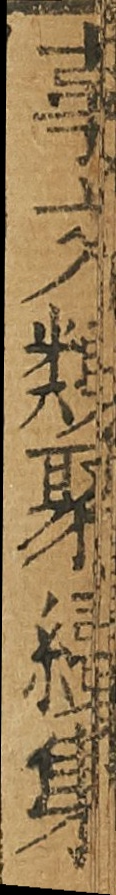事文類聚續集
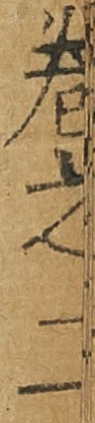卷之二
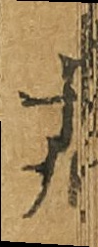十六
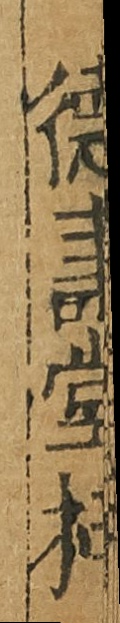德壽堂梓
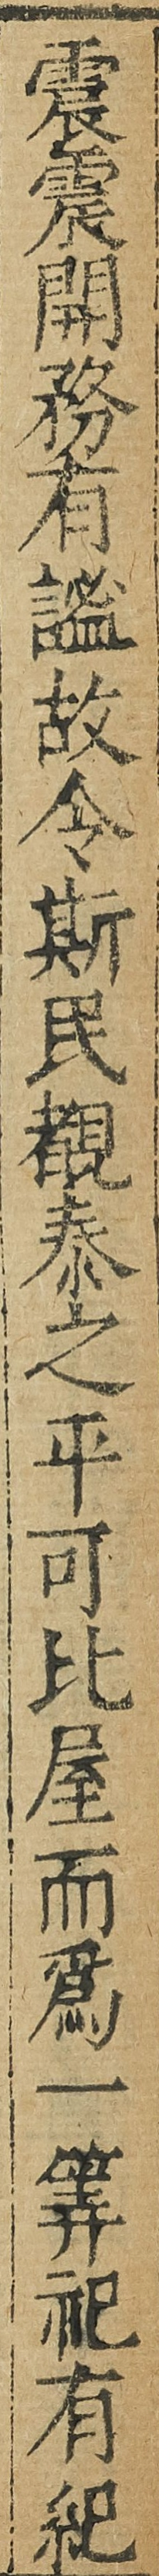震震開務有謐故令斯民覩泰之平可比屋而為一算祀有紀
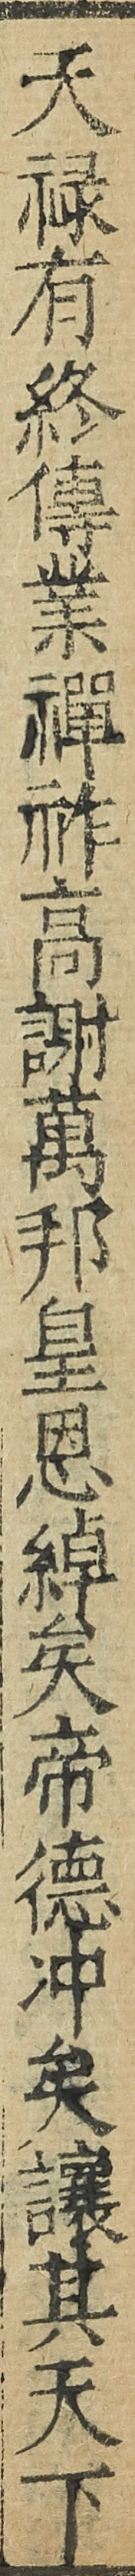天禄有終傳業禪祚高謝萬邦皇恩綽矣帝徳沖矣讓其天下
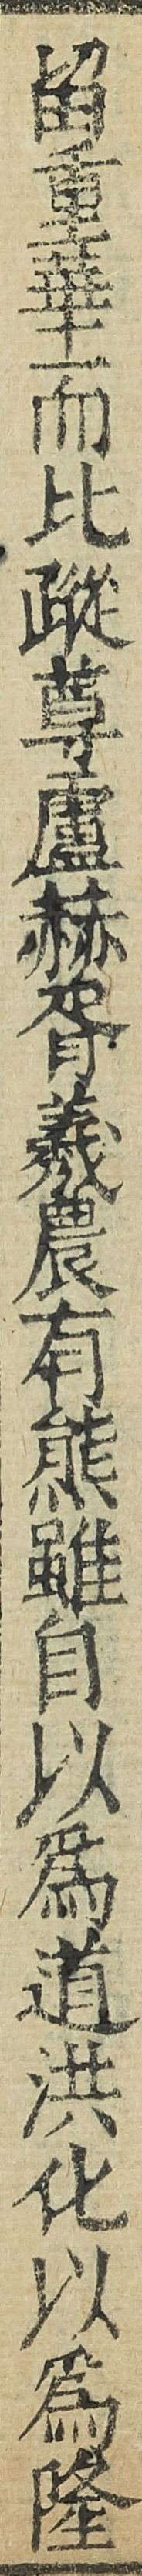留重華而比蹤尊盧赫胥羲農有熊雖自以為道洪化以為隆
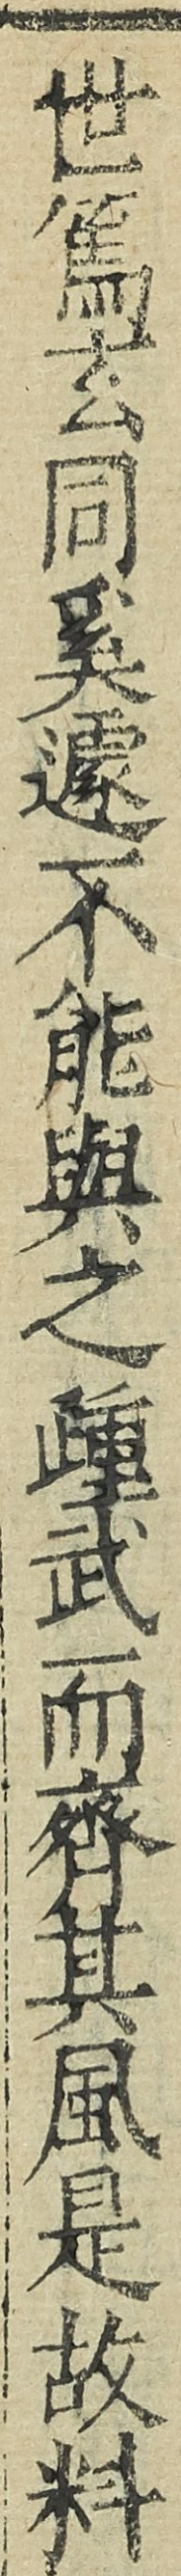世篤玄同奚遽不能與之踵武而齊其風是故料
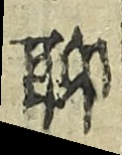聊
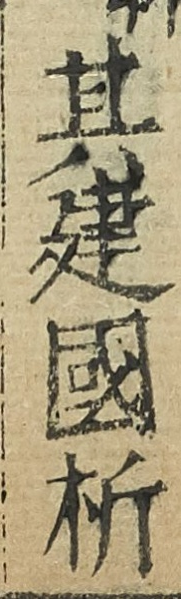其建國析
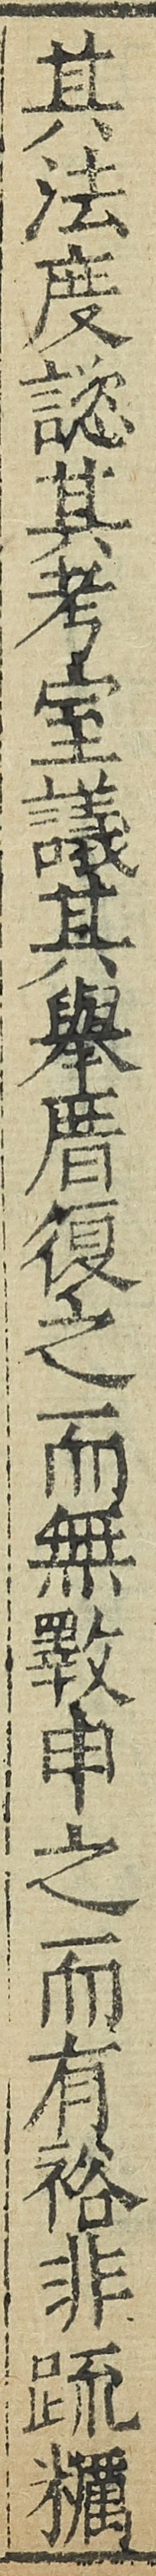其法度諮其考室議其舉厝復之而無斁申之而有裕非疏糲
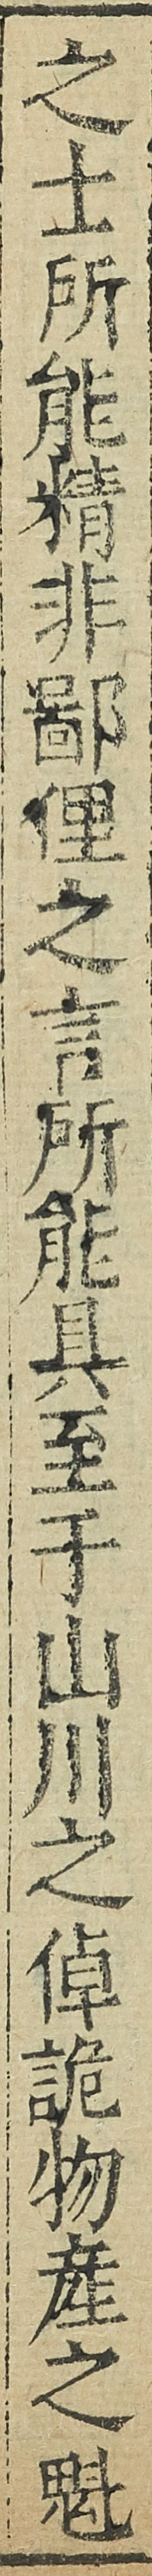之士所能精非鄙俚之言所能具至于山川之倬詭物産之魁
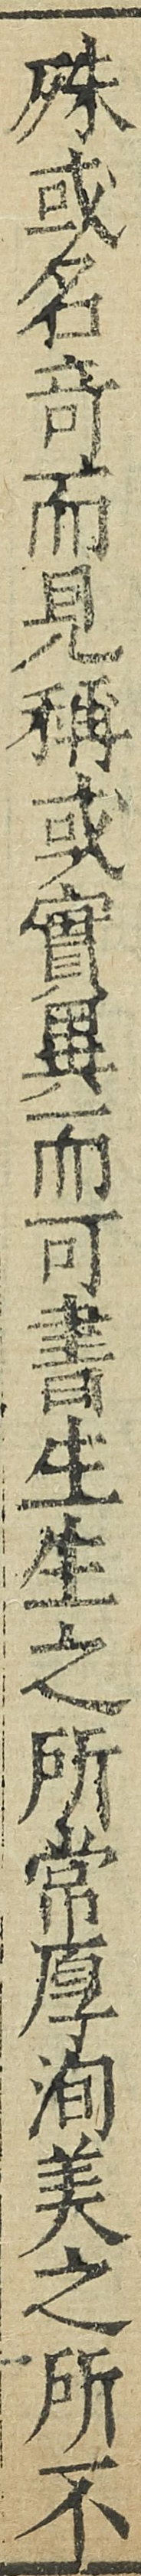殊或名竒而見稱或實異而可書生生之所常厚洵美之所不
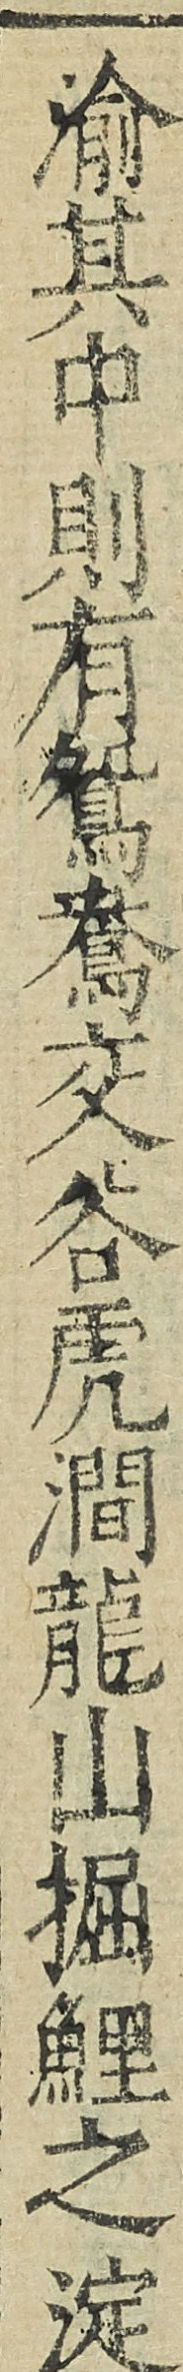渝其中則有鴛鴦交谷虎澗龍山掘鯉之淀
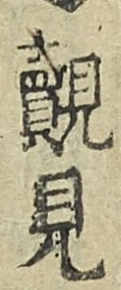覿見
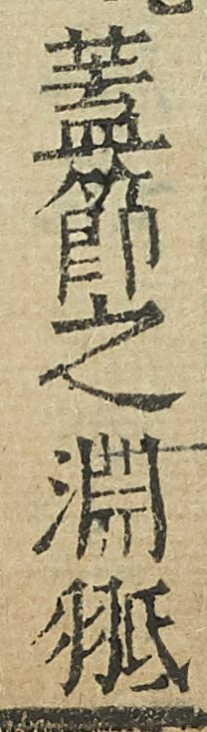蓋節之淵𦐠
